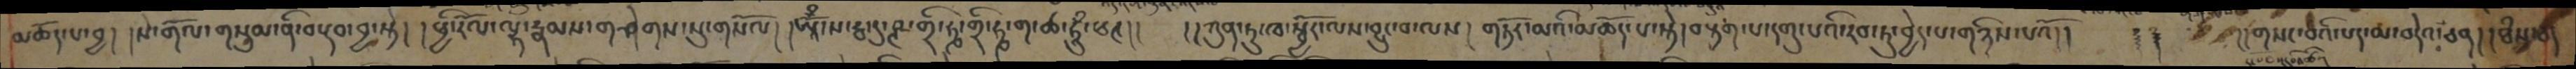མཆོད་པ་བྱ། །སེ་གོལ་གསུམ་ནི་བརྡབ་བྱ་སྟེ། །ཕྱི་རོལ་ལྷ་རྣམས་གཤེགས་སུ་གསོལ། །ཨཱོྃ་ས་རྦ་དུ་ཥྚ་གྲི་ཧྞ་གྲི་ཧྞ་ག་ཚ་ཧཱུྃ་ཕཊ།།  །།ཀུན་ཏུ་ཁ་སྦྱོར་ལས་བྱུང་བ་ལས། གཏོར་མའི་མཆོད་པ་སྟེ། །བརྟག་པ་དགུ་པའི་རབ་ཏུ་བྱེད་པ་གཉིས་པའོ།།   ༈༈  །།གསང་བའི་པད་མ་བདེའ་བ་ཅན། །ཐཾས་ཅད
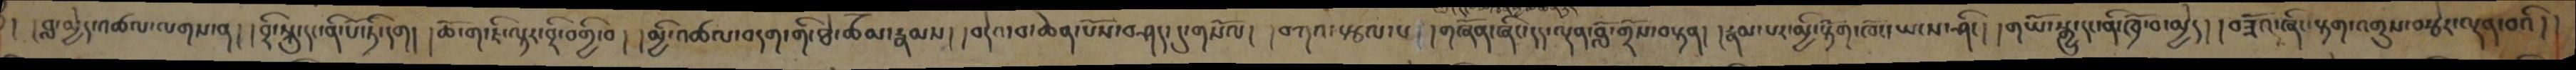། །བླ་མྱེད་འཚལ་ལགས་ན། །བྲི་སྐུ་དང་ནི་པོ་ཏི་དག། །ཆོ་ག་ཇི་ལྟར་བྲི་བགྱི་བ། །མྱི་འཚལ་བདག་གི་ཐེ་ཚོམ་རྣམས། །བདེའ་བ་ཆེན་པོས་བཤད་དུ་གསོལ། །བཀའ་སྩལ་པ། །གཞོན་ཞིང་དད་ལྡན་བློ་གྲོས་བསྟན། །རྣམ་པར་མྱི་རྟོག་ཁོར་ཡངས་ཤིང། །གཡོ་སྒྱུ་དང་ནི་ཁྲོ་བ་མྱེད། །བཟོའ་ཞིང་རྟག་འགྲུས་བརྩེར་ལྡན་བའི།།
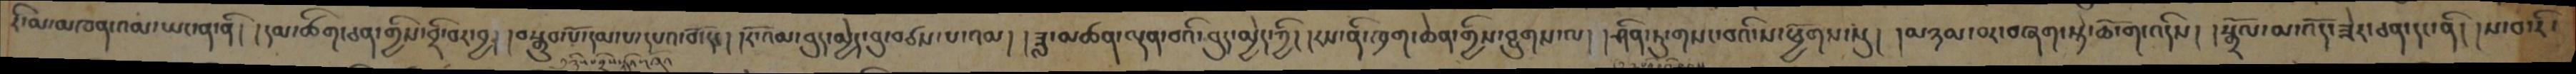རི་མ་མཁན་འམ་ཡང་ན་ནི། །དམ་ཚིག་ཅན་གྱིས་བྲི་བར་བྱ། །བསྒྲུབ་པོ་དམ་པ་དཔའ་བོ་དང། །རོ་འམ་བུད་མྱེད་བུ་བཙས་པ་འམ། །ཟླ་མཚན་ལྡན་བའི་བུད་མྱེད་ཀྱི། །རས་ནི་ཁྲག་ཆེན་གྱིས་བྱུགས་ལ། །ཤིན་ཏུ་གསང་བའི་ས་ཕྱོགས་སུ། །མཉམ་བར་བཞག་སྟེ་ཆོ་ག་འདིས། །སྒྲོལ་མ་འོད་ཟེར་ཅན་དང་ནི། །ས་བ་རི་
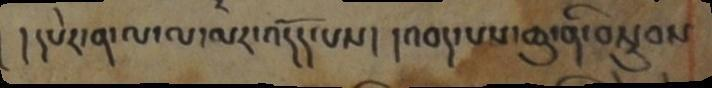། དཔེར་ན་ལ་ལ་མར་འདོད་པས། །འབད་པས་ཆུ་ནི་བསྡུབས
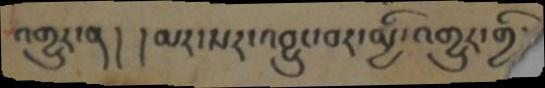འགྱུར་ན ། །མར་སར་འབྱུང་བར་མྱི་འགྱུར་གྱི་
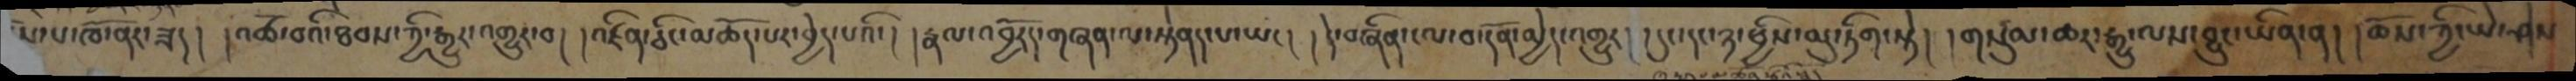སེ་པ་ཁོ་ནར་ཟད། །འཚོ་བའི་ཐབས་ཀྱི་རྒྱུར་འགྱུར་བ། །འཛིན་ཅིང་མཆོད་པར་བྱེད་པའི། །རྣལ་འབྱོརད་གཞན་ལ་སྟེནད་པ་ཡང། །དེ་བཞིན་ངལ་བ་དོན་མྱེད་འགྱུར། །དུང་དང་ཉ་ཕྱིས་མུ་ཏིག་སྟེ། །གསུམ་ཆར་རྒྱུ་ལས་བྱུང་ཡིན་ན། །ཆོས་ཀྱི་ཡེ་ཤེས
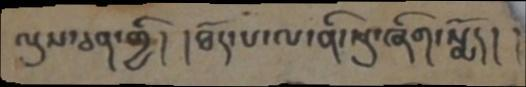ལུས་ཅན་གྱི། །ཐོད་པ་ལ་ནི་སུ་ཞིག་སྨོད། །
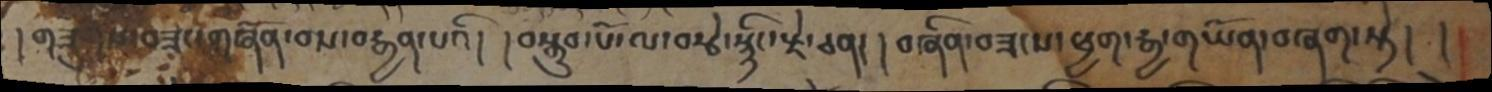།གཟུགས་བཟང་གཞོན་བས་བརྒྱན་པའི། །བསྒྲུབ་པོ་ལ་བརྩེ་སྙིང་རྗེ་ཅན། ། བཞིན་བཟངས་ཕྱག་རྒྱ་གཡོན་བཞག་སྟེ། །
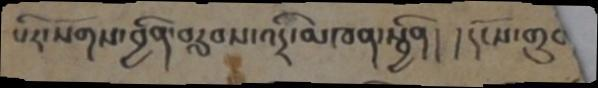པིར་སོགས་བྱིན་བརླབས་འདྲི་མཁན་སྦྱིན། །དངོས་གྲུབ
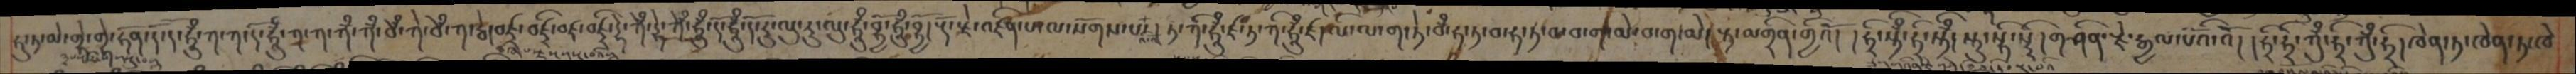ཧུ་ཏ་མེ་གྷེ་གྷེ་ཧོན་དོ་ད་ཧཱུྃ་ཀ་ཀ་དོ་ཧཱུྃ་ཀ་ཀ་ཀྃ་ཀྃ་བྃ་ཀེ་བྃ་ཀ་རྦེ་བཛྲ་བཛྲི་བཛྲ་བཛྲ་དྷི་ཀྃ་དྷེ་ཀྃ་ཧཱུྃ་དོ་ཧཱུྃ་དོ་རུ་ལུ་རུ་ལུ་ཧཱུྃ་བྷྱོ་ཧཱུྃ་བྷྱོ། རྡོ་རྗེ་འཛིན་པ་ལ་སོགས་པར། ཏ་ཀི་ཧཱུྃ་ཛ་ཏ་ཀ་ཧཱུྃ་ཛ། ལི་ལ་ག་ཏེ་བྃ་ཧ་ཏ་བ་ཧ་ཏ་བ་བ་ག་མེ་བ་ག་མེ། རྟ་མགྲིན་གྱིའོ། །ཧྲི་སྟྃ་ཧི་སྟྃ། སྟུ་སྟི་སྟི། གཤིན་རྗེ་རྒྱལ་པོའི་འོ། །ཧྲི་ཧྲི་ཀུཾ་ཧྲི་ཀུྃ་ཧྲི། ཁེན་ཏ་ཁེན་ཏ་ཁེ
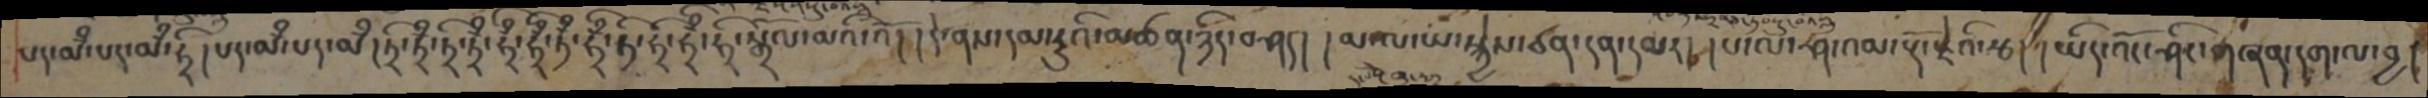པད་མྃ་པད་མྃ་ཧྲི། པད་མྃ་པད་མྃ། ཏྲི་ཏྲྃ་ཏྲི་ཏྲྃ་ཧྲྃ་ཧྲྃ་ཏྃ་ཧྲྃ་ཏི་ཧྲི་ཧྲྃ་ཧྲི་སྒྲོལ་མའི་འོ། །དེ་ནས་དམ་རུའི་མཚན་ཉིད་བཤད། །མ་ལ་ཡ་སྐྱེས་ཙན་དན་དམར། །པ་ལོ་ཤ་འམ་རྡོ་རྗེའི་རྩ། །ཡིད་འོང་ཤིང་གཞན་དག་ལ་བྱ།
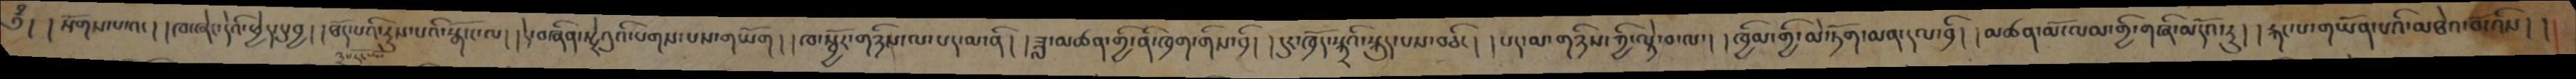༄ྃ ། །སོགས་པ་འང། །ཁ་ཞེང་དེའི་ཕྱེད་དུ་བྱ། །ཐོད་པའི་རུས་པའི་སྒོ་ང་ལ། །དེ་བཞིན་སྤྲེའུའི་པགས་པས་གཡོག། །ཁ་སྦྱོར་གཉིས་ལ་པད་མ་ནི། །ཟླ་མཚན་གྱི་ནི་ཁྲག་གིས་བྲི། །དུར་ཁྲོད་སྐྲའི་སྐུད་པས་བཅིང། །པད་མ་གཉིས་ཀྱི་ལྟེ་བ་ལ། །ཁྱིམ་གྱི་མེ་ཏོག་མན་དལ་བྲི། །མཚན་མོ་ལམ་གྱི་གཞི་མདོའ་རུ། །རྐང་པ་གཡོན་པའི་མཐེའ་བོ་འིས། །
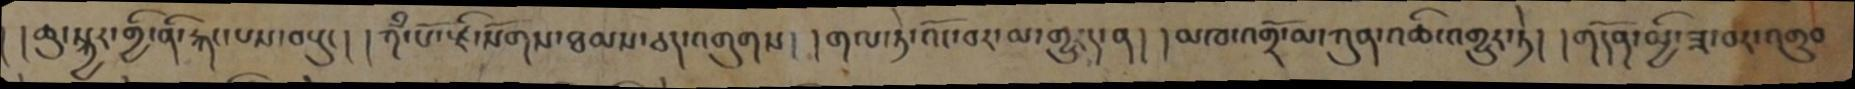།ཆུ་སྐྱར་གྱི་ནི་རྐང་པས་བསྡང། །ཀྃ་པོ་ཇི་སོགས་ཐམས་ཅད་འགུགས། །གལ་ཏེ་འོང་བར་མ་གྱུརད་ན། །མཁ་འགྲོ་མ་ཀུན་འཆི་འགྱུར་ཏེ། །གདོན་མྱི་ཟ་བར་འགྲུབ
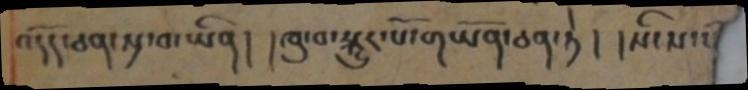འདོད་ཅན་སྔ་བ་ཡིན། །ཁུ་བ་སྐྱུར་པོ་གཡོན་ཅན་ཏེ། །སིངས་ང
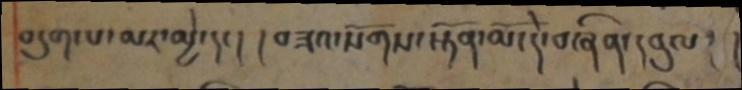བདུག་པ་མར་མྱེ་དང། །བཟའ་སོགས་སྟོན་མོ་དེ་བཞིན་དབུལ། །
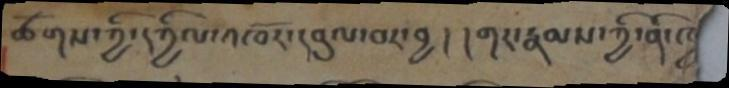ཚོགས་ཀྱི་དཀྱིལ་འཁོར་དབུལ་བར་བྱ ། །གར་རྣམས་ཀྱི་ནི་ཁྱ་
